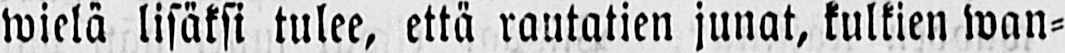wielä lisäksi tulee, että rautatien junat, kulkien wan-
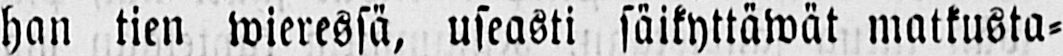han tien wieressä, useasti säikyttäwät matkusta-
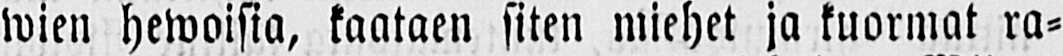wien hewoisia, kaataen siten miehet ja kuormat ra-
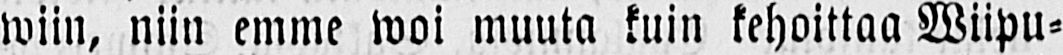wiin, niin emme woi muuta kuin kehoittaa Wiipu-
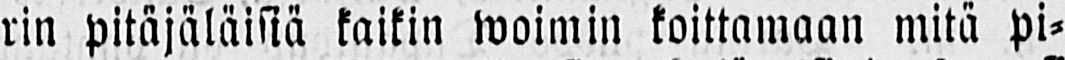rin pitäjäläisiä kaikin woimin koittamaan mitä pi-
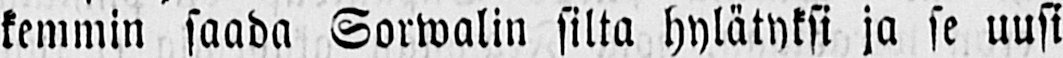kemmin saada Sorwalin silta hylätyksi ja se uusi
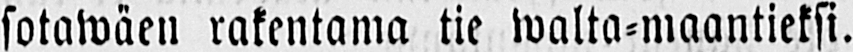sotawäen rakentama tie walta-maantieksi.
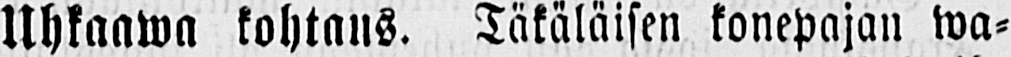Uhkaawa kohtaus. Täkäläisen konepajan wa-
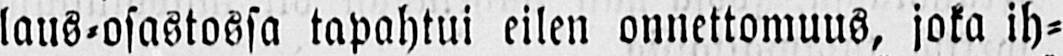laus-osastossa tapahtui eilen onnettomuus, joka ih-
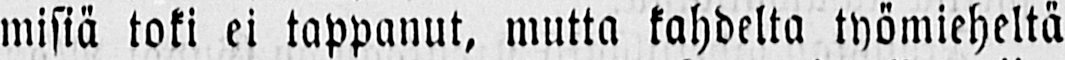misiä toki ei tappanut, mutta kahdelta työmieheltä
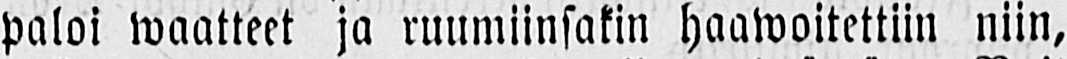paloi waatteet ja ruumiinsakin haawoitettiin niin,
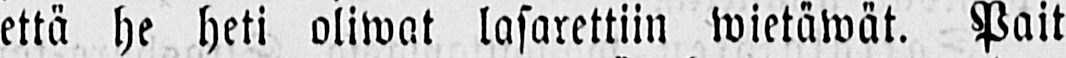että he heti oliwat lasarettiin wietäwät. Pait
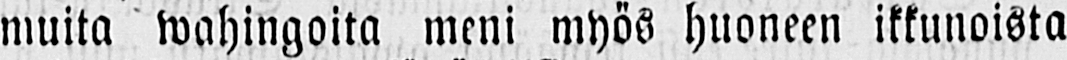muita wahingoita meni myös huoneen ikkunoista
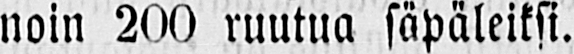noin 200 ruutua säpäleiksi.
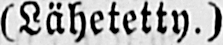(Lähetetty.)
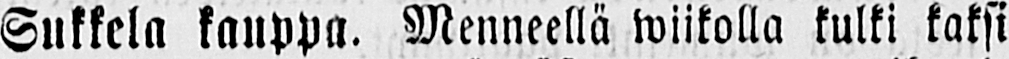Sukkela kauppa. Menneellä wiikolla kulki kaksi
